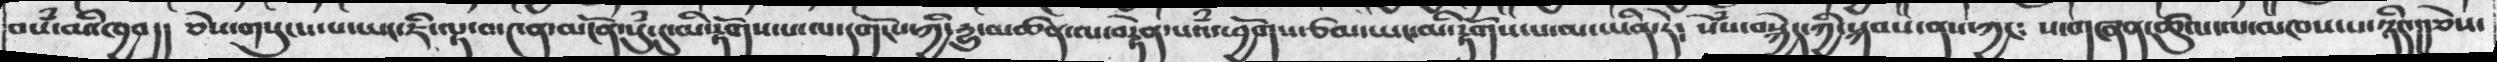བསཾ་བའི་ཁྱབ།།  ཅེས་གསུངས་པ་ཡང་ཇི་ལྟ་བ་༤ན་མངོན་སུཾ་དུ་མི་རྟོགས་པ་ལ་དགོངས་ཀྱི་དྱུ་མཚན་ལ་བརྟེན་པའཾ་ཕྱོགས་ཙམ་ཡང་མི་རྟོགས་པ་མ་ཡིན་དེ༴  སེཾས་བསྐྱེད་ཀྱི་སྐབས་ནས་ཀྱང༴  ས་གཞན་ཚུལ་ལ་མཁས་པ་ཉིད་།།ཅེས་
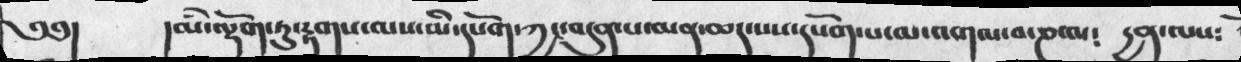༄༅།  །མི་ལྡོག་ཏུ་རྟགས་ལས་མི་དཔོག་ཀྱང་བདུན་པ་མན་ཆད་པས་དཔོག་པ་ལ་འགལ་བ་ཎ་ལ༴  དྱན་ལས༴
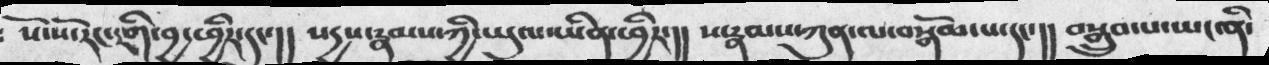སོ་སོ་རང་གི་བྱ་ཕྱིར་དང་།།  སདྱས་རྣམས་ཀྱི་ཡུལ་ཡིན་ཕྱིར་།།  པ་རྣམས་ཀུན་ལ་བསྒོམ་པ་དང་།།  བསྒྲུབ་པ་ཡང་ནི་
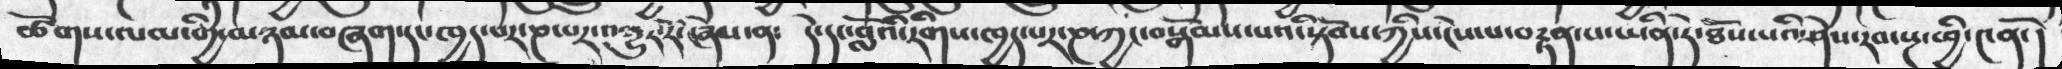ཚོགས་ལམ་གྱི་མཉམ་བཞག་དང་ཁྱད་པར་ཎ་པར་འགྱུར་རོ་ཞེས་ན༴   དེ་དང་བློའི་རིགས་ཁྱད་པར་ཎ་ཀྱང་བསྒོམས་པའི་སྟོབས་ཀྱིས་ངེས་པ་བརྟན་པ་ཡིན་ཏེ་ཐོས་པའི་ཤེས་རབ་སྔ་ཕྱི་༤ནོ་།
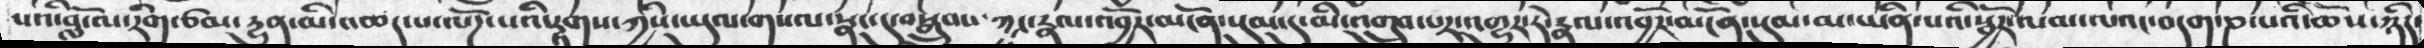པའི་བློ་ལ་རིག་ཙམ་དྱུན་མི་འཆད་པ་ལོཌ་པའི་རྟགས་ཀྱིས་ཡུལ་གསལ་སྣང་དུ་བསྒྲུབས་ཀྱང་རྣལ་འབྱོར་མངོན་སུམ་དུ་མི་འགྲུབ་པར་འགྱུར་ཏེ་རྣལ་འབྱོར་མངོན་སུམ་མ་ཡིན་པའི་སྦྱོར་ལམ་ལའང་བདག་ཎ་པའི་ཆོས་ཉིད་
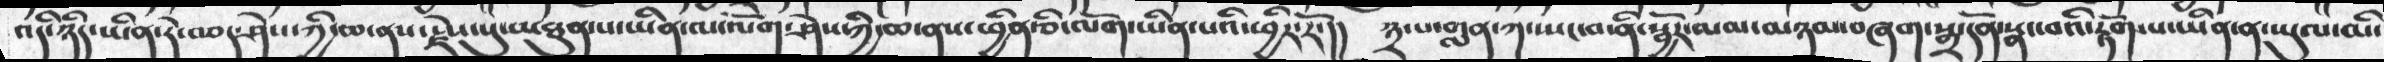འདི་ཉིད་ཡིན་རེ་བཅད་ཤེས་ཀྱི་ཆ་ནས་རྗེས་སུ་མཐུན་པ་ཡིན་ལ་ལོག་ཤེས་ཀྱི་ཆ་ནས་ཕྱིར་ཅི་ལོག་ཡིན་པའི་ཕྱིར་རོ་།།   ༣་པ་གླན་ཀ་སྤང་བ་ནི་སྦྱོར་མམ་མཉམ་བཞག་སྒྲ་དོན་སྣང་བའི་རྟོག་པ་ཡིན་ན་ཡུལ་མི་
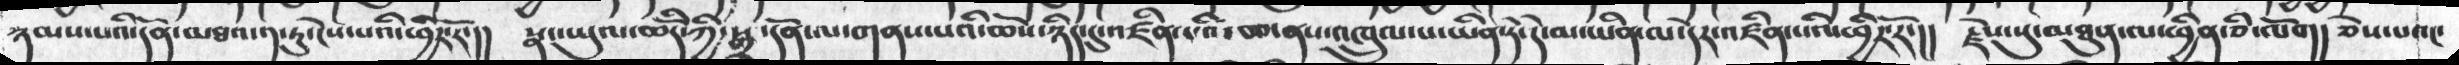ཉམས་པའི་དོན་མཐའ་༡་ཏུ་ངེས་པའི་ཕྱིར་རོ་།།   སྣང་ཡུལ་ཆོིད་ཀྱི་སྒྲ་དོན་ལ་གནས་པའི་ཆོས་ཉིད་དུ་འཛིན་པའི་ཆ་ནས་འཁྲུལ་པ་ཡིན་ཏེ་དེ་མ་ཡིན་ལ་དེར་འཛིན་པའི་ཕྱིར་རོ་།།    རྗེས་སུ་མཐུན་ལ་ཕྱིན་ཅི་ལོག།  ཅེས་པའང་
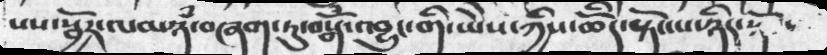སས་སྦྱོར་ལམ་མཉཾ་བཞག་ཏུ་བསྒོཾ་འབྱུང་གི་ཡེེས་ཀྱིས་ཆོིད་སྟོང་པ་ཉིད་སྟོ
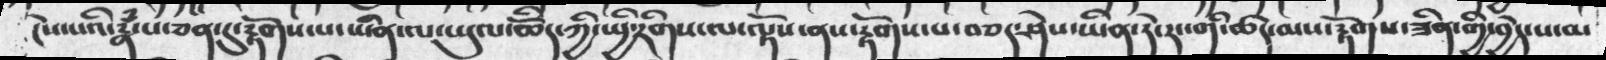ངེས་པའི་རྣཾ་པ་ཅན་དུ་རྟོགས་པ་ཡིན་ལ་ཡུལ་ཆོིད་ཀྱི་སྤྱི་རིགས་ལ་ལྟོས་ནས་རྟོགས་པ་བཅད་ཤེས་ཡིན་དེ་རང་གི་ཚད་མས་རྟོགས་ཟིན་གྱི་བྱེད་པ་མ
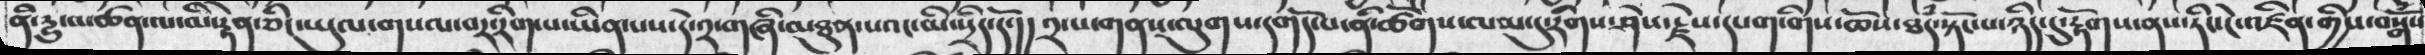ནི་དྱུ་མཚན་ལ་མི་རྟེན་ཅིང་ཡུལ་གསལ་བར་རིག་པ་ཡིན་པས་དེ་༢་གཞི་མཐུན་པའང་མི་སྲིད་དོ་།།  ༢་པ་གནས་ལུགས་དགོད་པ་ནི་ཚོགས་ལམ་དུ་རིགས་ཤེས་རྗེས་དཔག་གིས་ཆོས་ཐཾད་སྟོང་པ་ཉིད་དུ་རྟོགས་་ཏིང་ངེ་འཛིན་གྱིས་བསྒོསནས
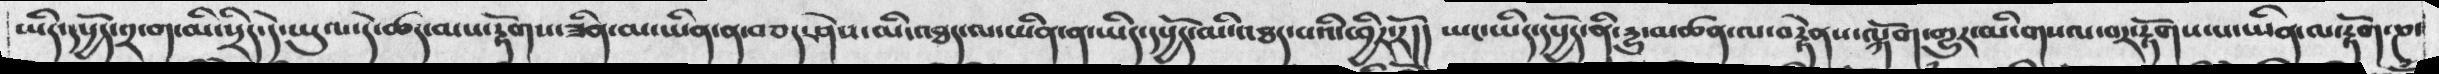ཡིད་དཔྱོད་༢་ག་མི་སྲིད་དེ་ཡུལ་དེ་ཚད་མས་རྟོགས་ཟིན་མ་ཡིན་ན་བཅད་ཤེས་མི་མཐད་ལ་ཡིན་ན་ཡིད་དཔྱོད་མི་འཐད་པའི་ཕྱིར་རོ།།  ཡང་ཡིད་དཔྱོད་ནི་དྱུ་མཚན་ལ་བརྟེནས་ལྐོག་གྱུར་མི་གསལ་བར་རྟོགས་པ་ཡིན་ལ་རྟོག་ཎ་
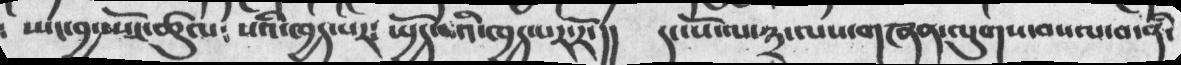སྤང་བྱ་སྤོང་ཚུལ༴  སའི་ཁྱད་པར་ སྤྱོད་པའི་ཁྱད་པར་རོ་།།  དང་པོ་ལ་༣་ལས་གཞན་ལུགས་བསལ་བ་ནི་
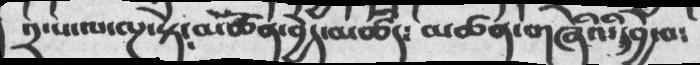༢་པ་ལ་ལྔ་སྟེ༴མཚོན་བྱེད་མཚིད༴  མཚན་གཞིའི་དབྱེ་བ༴
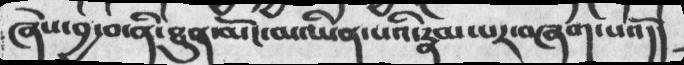ཞེས་བྱ་བ་ནི་ཐུན་མོང་མ་ཡིན་པའི་རྣམ་པར་བཞག་པའོ།།
